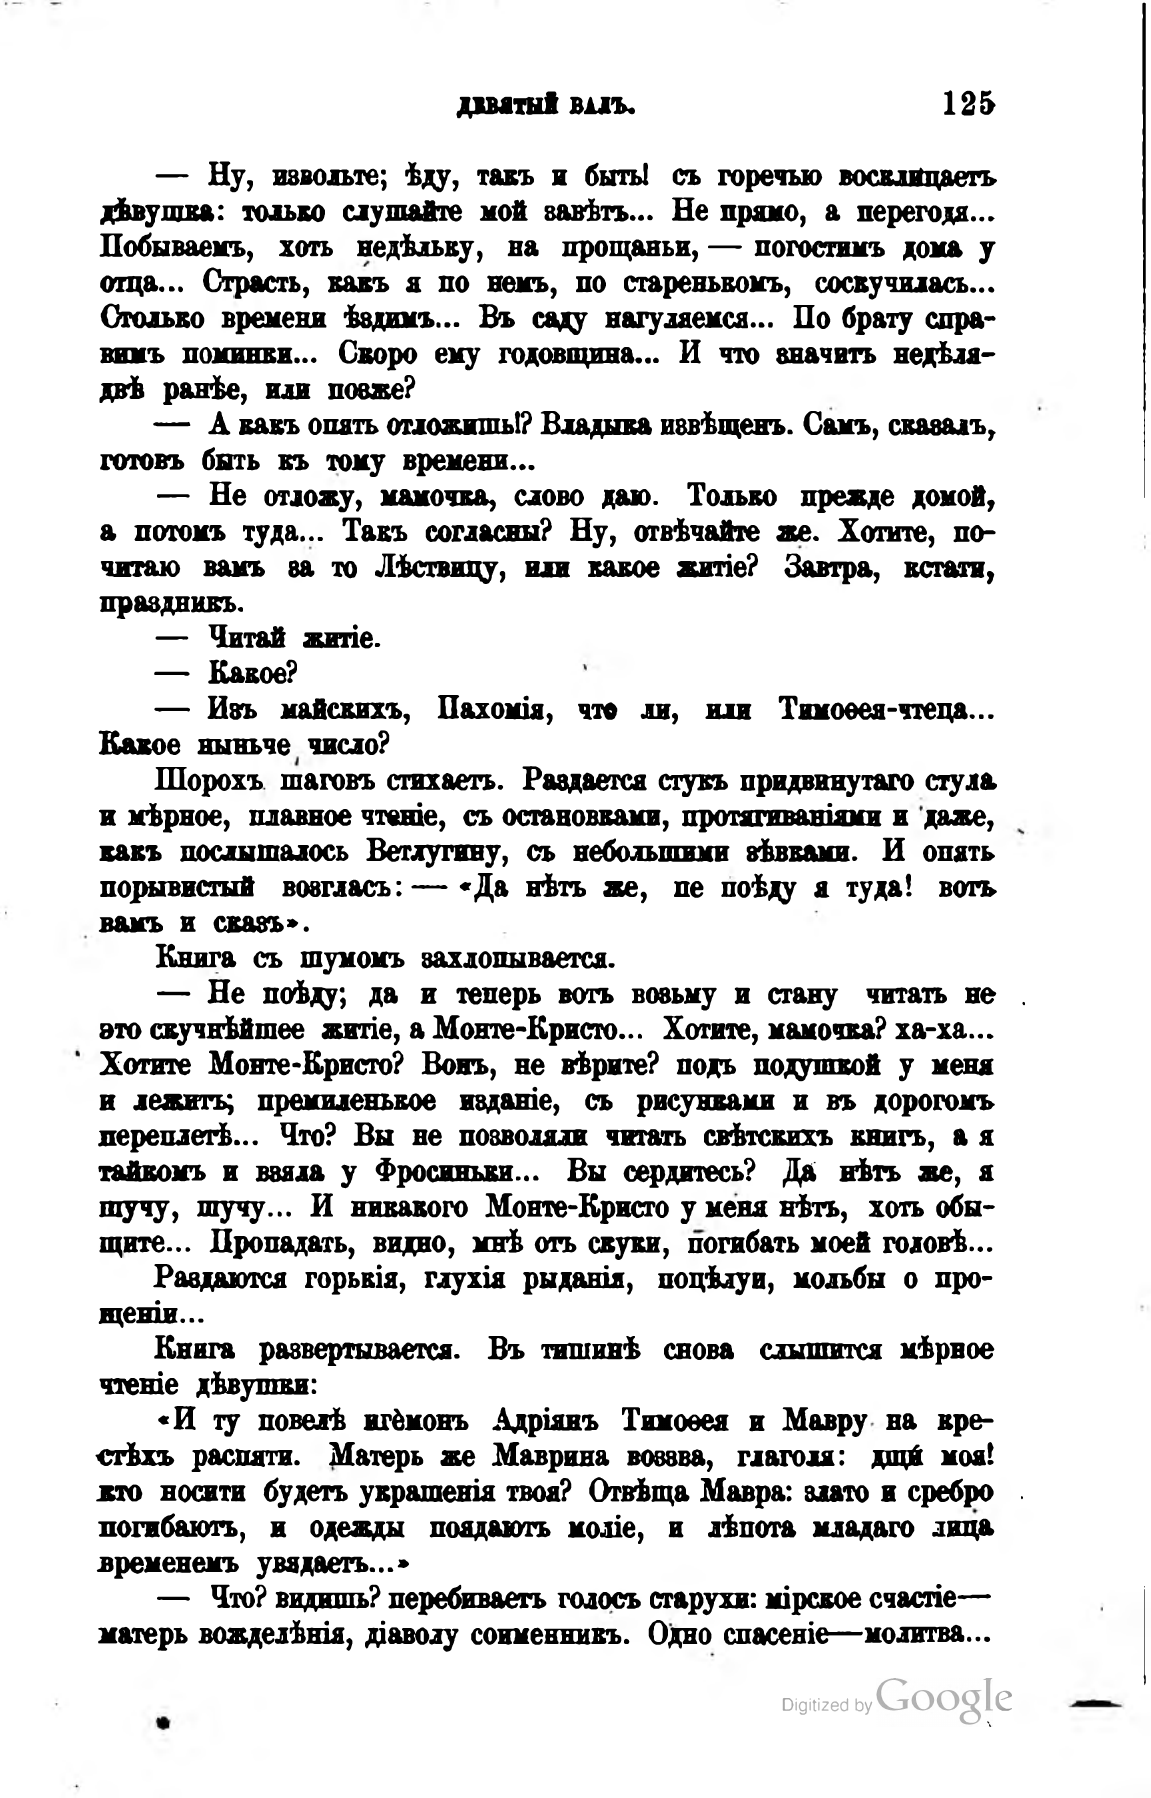ДЕВЯТЫЙ ВАЛЪ.                       125
— Ну, извольте; ѣду, такъ и быть! съ горечью восклицаетъ дѣвушка: только слушайте мой завѣтъ... Не прямо, а перегодя… Побываемъ, хоть недѣльку, на прощаньи, — погостимъ дома у отца... Страсть, какъ я по немъ, по старенькомъ, соскучилась… Столько времени ѣздимъ... Въ саду нагуляемся... По брату справимъ поминки... Скоро ему годовщина... И что значить недѣля-двѣ ранѣе, или позже?
— А какъ опять отложишь!? Владыка извѣщенъ. Самъ, сказалъ, готовъ быть къ тому времени...
— Не отложу, мамочка, слово даю. Только прежде домой, а потомъ туда... Такъ согласны? Ну, отвѣчайте же. Хотите, почитаю вамъ за то Лѣствицу, или какое житіе? Завтра, кстати, праздникъ.
— Читай житіе.
— Какое?
— Изъ майскихъ, Пахомія, что ли, или Тимоѳея-чтеца… Какое ныньче число?
Шорохъ шаговъ стихаетъ. Раздается стукъ придвинутаго стула и мѣрное, плавное чтеніе, съ остановками, протягиваніями и даже, какъ послышалось Ветлугину, съ небольшими зѣвками. И опять порывистый возгласъ: — «Да нѣтъ же, не поѣду я туда! вотъ вамъ и сказъ».
Книга съ шумомъ захлопывается.
— Не поѣду; да и теперь вотъ возьму и стану читать не это скучнѣйшее житіе, а Монте-Кристо... Хотите, мамочка? ха-ха… Хотите Монте-Кристо? Вонъ, не вѣрите? подъ подушкой у меня и лежитъ; премиленькое изданіе, съ рисунками и въ дорогомъ переплетѣ... Что? Вы не позволяли читать свѣтскихъ книгъ, а я тайкомъ и взяла у Фросиньки... Вы сердитесь? Да нѣтъ же, я шучу, шучу... И никакого Монте-Кристо у меня нѣтъ, хоть обыщите... Пропадать, видно, мнѣ отъ скуки, погибать моей головѣ…
Раздаются горькія, глухія рыданія, поцѣлуи, мольбы о прощеніи...
Книга развертывается. Въ тишинѣ снова слышится мѣрное чтеніе дѣвушки:
«И ту повелѣ игемонъ Адріянъ Тимоѳея и Мавру на крестѣхъ распяти. Матерь же Маврина воззва, глаголя: дщи моя! кто носити будетъ украшенія твоя? Отвѣща Мавра: злато и сребро погибаютъ, и одежды поядаютъ моліе, и лѣпота младаго лица временемъ увядаетъ...»
— Что? видишь? перебиваетъ голосъ старухи: мірское счастіе — матерь вожделѣнія, діаволу соименникъ. Одно спасеніе — молитва...
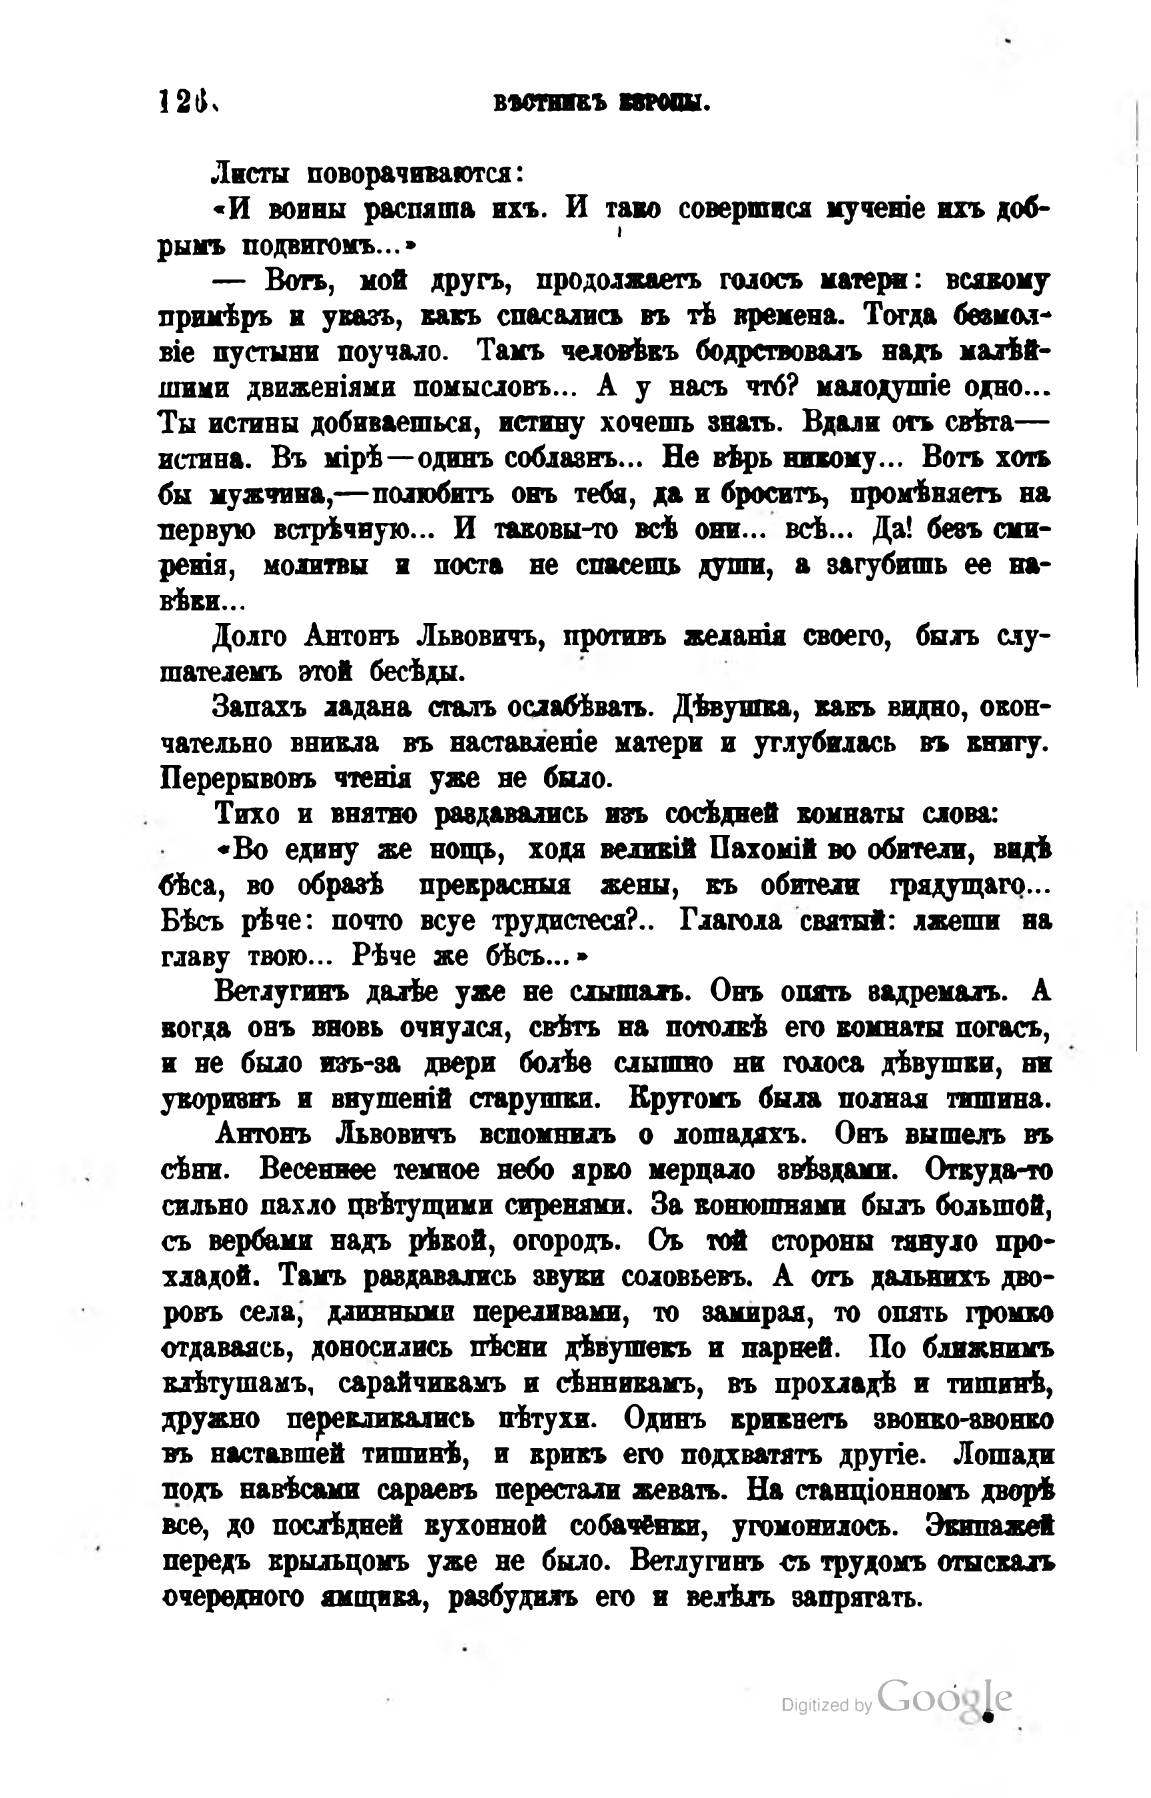126                      ВѢСТНИКЪ ЕВРОПЫ.
Листы поворачиваются:
«И воины распяша ихъ. И тако совершися мученіе ихъ добрымъ подвигомъ…»                
— Вотъ, мой другъ, продолжаетъ голосъ матери: всякому примѣръ и указъ, какъ спасались въ тѣ времена. Тогда безмолвіе пустыни поучало. Тамъ человѣкъ бодрствовалъ надъ малѣйшими движеніями помысловъ... А у насъ что? малодушіе одно… Ты истины добиваешься, истину хочешь знать. Вдали отъ свѣта — истина. Въ мірѣ — одинъ соблазнъ... Не вѣрь никому... Вотъ хоть бы мужчина, — полюбитъ онъ тебя, да и броситъ, промѣняетъ на первую встрѣчную... И таковы-то всѣ они... всѣ... Да! безъ смиренія, молитвы и поста не спасешь души, а загубишь ее навѣки...
Долго Антонъ Львовичъ, противъ желанія своего, былъ слушателемъ этой бесѣды.
Запахъ ладана сталъ ослабѣвать. Дѣвушка, какъ видно, окончательно вникла въ наставленіе матери и углубилась въ книгу. Перерывовъ чтенія уже не было.
Тихо и внятно раздавались изъ сосѣдней комнаты слова:
«Во едину же нощь, ходя великій Пахомій во обители, видѣ бѣса, во образѣ прекрасныя жены, въ обители грядущаго… Бѣсъ рѣче: почто всуе трудистеся?.. Глагола святый: лжеши на главу твою... Рѣче же бѣсъ...»
Ветлугинъ далѣе уже не слышалъ. Онъ опять задремалъ. А когда онъ вновь очнулся, свѣтъ на потолкѣ его комнаты погасъ, и не было изъ-за двери болѣе слышно ни голоса дѣвушки, ни укоризнъ и внушеній старушки. Кругомъ была полная тишина.
Антонъ Львовичъ вспомнилъ о лошадяхъ. Онъ вышелъ въ сѣни. Весеннее темное небо ярко мерцало звѣздами. Откуда-то сильно пахло цвѣтущими сиренями. За конюшнями былъ большой, съ вербами надъ рѣкой, огородъ. Съ той стороны тянуло прохладой. Тамъ раздавались звуки соловьевъ. А отъ дальнихъ дворовъ села, длинными переливами, то замирая, то опять громко отдаваясь, доносились пѣсни дѣвушекъ и парней. По ближнимъ клѣтушамъ, сарайчикамъ и сѣнникамъ, въ прохладѣ и тишинѣ, дружно перекликались пѣтухи. Одинъ крикнетъ звонко-звонко въ наставшей тишинѣ, и крикъ его подхватятъ другіе. Лошади подъ навѣсами сараевъ перестали жевать. На станціонномъ дворѣ все, до послѣдней кухонной собачёнки, угомонилось. Экипажей передъ крыльцомъ уже не было. Ветлугинъ съ трудомъ отыскалъ очередного ямщика, разбудилъ его и велѣлъ запрягать.
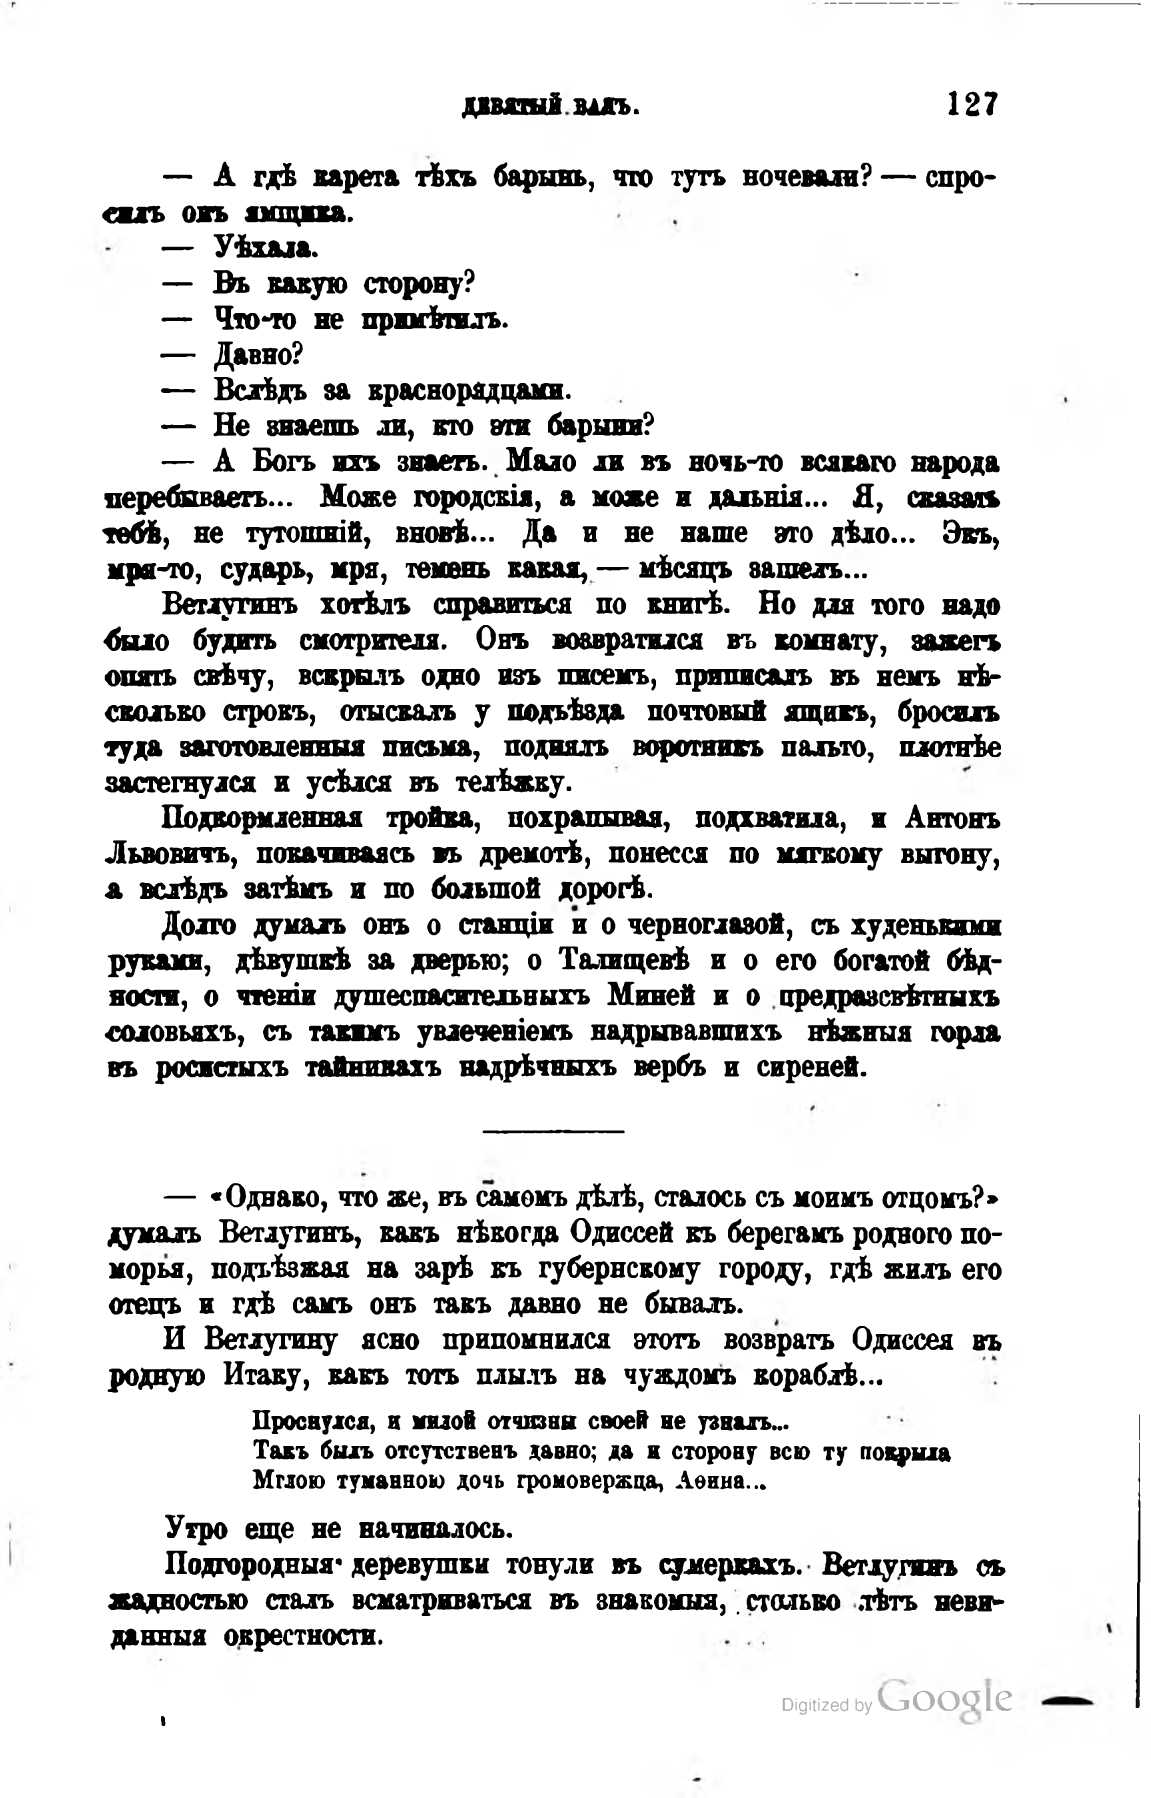ДЕВЯТЫЙ ВАЛЪ.                               127
— А гдѣ карета тѣхъ барынь, что тутъ ночевали? — спросилъ онъ ямщика.
— Уѣхала.
— Въ какую сторону?
— Что-то не примѣтилъ.
— Давно?
— Вслѣдъ за краснорядцами.
— Не знаешь ли, кто эти барыни?
— А Богъ ихъ знаетъ. Мало ли въ ночь-то всякаго народа перебываетъ... Може городскія, а може и дальнія... Я, сказать тебѣ, не тутошній, вновѣ... Да и не наше это дѣло... Экъ, мря-то, сударь, мря, темень какая, — мѣсяцъ зашелъ...
Ветлугинъ хотѣлъ справиться по книгѣ. Но для того надо было будить смотрителя. Онъ возвратился въ комнату, зажегъ опять свѣчу, вскрылъ одно изъ писемъ, приписалъ въ немъ нѣсколько строкъ, отыскалъ у подъѣзда почтовый ящикъ, бросилъ туда заготовленныя письма, поднялъ воротникъ пальто, плотнѣе застегнулся и усѣлся въ телѣжку.
Подкормленная тройка, похрапывая, подхватила, и Антонъ Львовичъ, покачиваясь въ дремотѣ, понесся по мягкому выгону, а вслѣдъ затѣмъ и по большой дорогѣ.
Долго думалъ онъ о станціи и о черноглазой, съ худенькими руками, дѣвушкѣ за дверью; о Талищевѣ и о его богатой бѣдности, о чтеніи душеспасительныхъ Миней и о предразсвѣтныхъ соловьяхъ, съ такимъ увлеченіемъ надрывавшихъ нѣжныя горла въ росистыхъ тайникахъ надрѣчныхъ вербъ и сиреней.
—
— «Однако, что же, въ самомъ дѣлѣ, сталось съ моимъ отцомъ?» думалъ Ветлугинъ, какъ нѣкогда Одиссей къ берегамъ родного поморья, подъѣзжая на зарѣ къ губернскому городу, гдѣ жилъ его отецъ и гдѣ самъ онъ такъ давно не бывалъ.
И Ветлугину ясно припомнился этотъ возвратъ Одиссея въ родную Итаку, какъ тотъ плылъ на чуждомъ кораблѣ...
Проснулся, и милой отчизны своей не узналъ...
Такъ былъ отсутственъ давно; да и сторону всю ту покрыла
Мглою туманною дочь громовержца, Аѳина...
Утро еще не начиналось.
Подгородныя деревушки тонули въ сумеркахъ. Ветлугинъ съ жадностью сталъ всматриваться въ знакомыя, столько лѣтъ невиданныя окрестности.